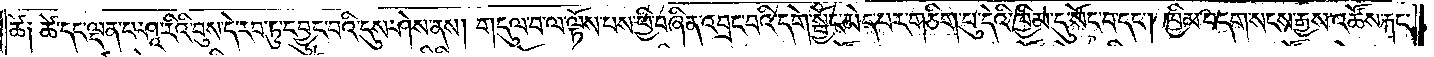ཚེ༑ ཚེ་དང་ལྡན་པ་ཤཱ་རིའི་བུས་དེ་རབ་ཏུ་དབྱུང་བའི་དུས་ཤེས་ནས། གདུལ་བ་ལ་ལྟོས་པས་ཕྱི་བཞིན་འབྲང་བའི་དགེ་སྦྱོང་མེད་པར་གཅིག་པུ་དེའི་ཁྱིམ་དུ་སོང་བ་དང༌། ཁྱིམ་བདག་སངས་རྒྱས་འཚོས་རྐང་
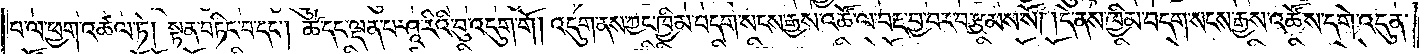པ་ལ་ཕྱག་འཚལ་ཏེ། སྟན་བཏིང་བ་དང༌། ཚེ་དང་ལྡན་པ་ཤཱ་རིའི་བུ་འདུག་གོ ། འདུག་ནས་ཀྱང་ཁྱིམ་བདག་སངས་རྒྱས་འཚོ་ལ་བརྡ་བྱ་བར་བརྩམས་སོ། །དེ་ནས་ཁྱིམ་བདག་སངས་རྒྱས་འཚོས་དགེ་འདུན་
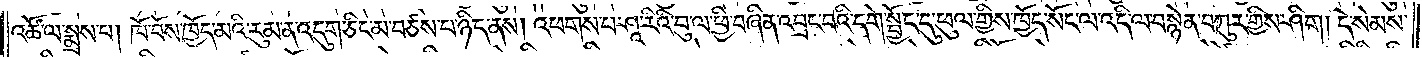འཚོ་ལ་སྨྲས་པ། ཁོ་བོས་ཁྱོད་མའི་རུམ་ན་འདུག་ཅིང་མ་བཙས་པ་ཉིད་ནས། འཕགས་པ་ཤཱ་རིའི་བུ་ལ་ཕྱི་བཞིན་འབྲང་བའི་དགེ་སྦྱོང་དུ་ཕུལ་གྱིས་ཁྱོད་སོང་ལ་འདི་ལ་བསྙེན་བཀུར་གྱིས་ཤིག ། དེ་སེམས་
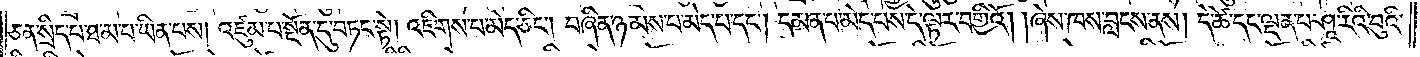ཅན་སྲིད་པ་ཐ་མ་པ་ཡིན་པས། འཛུམ་པ་སྔོན་དུ་བཏང་སྟེ། འཇིགས་པ་མེད་ཅིང༌། བཞིན་ཉམས་པ་མེད་པ་དང༌། དམན་པ་མེད་པས་དེ་ལྟར་བགྱིའོ། །ཞེས་ཁས་བླངས་ནས། དེ་ཚེ་དང་ལྡན་པ་ཤཱ་རིའི་བུའི་
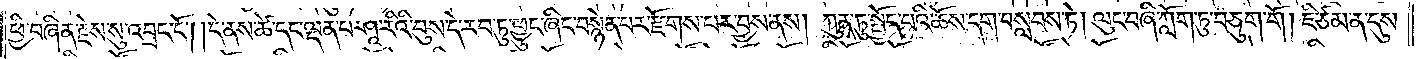ཕྱི་བཞིན་རྗེས་སུ་འབྲང་ངོ༌། །དེ་ནས་ཚེ་དང་ལྡན་པ་ཤཱ་རིའི་བུས་དེ་རབ་ཏུ་ཕྱུང་ཞིང་བསྙེན་པར་རྫོགས་པར་བྱས་ནས། ཀུན་ཏུ་སྤྱོད་པའི་ཆོས་དག་བསླབས་ཏེ། ལུང་བཞི་ཀློག་ཏུ་བཅུག་གོ ། ཇི་ཙམ་ན་དུས་
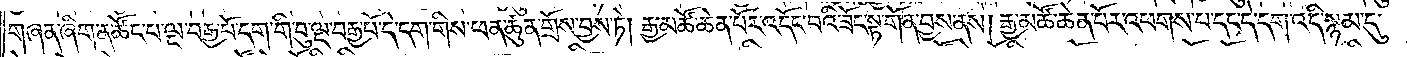གཞན་ཞིག་ན་ཚོང་པ་ལྔ་བརྒྱ་པོ་དག་གི་བུ་ལྔ་བརྒྱ་པོ་དེ་དག་གིས་ཕན་ཚུན་གྲོས་བྱས་ཏེ། རྒྱ་མཚོ་ཆེན་པོར་འདོང་བའི་ཟོང་སྟེ་གོན་བྱས་ནས། རྒྱ་མཚོ་ཆེན་པོར་འཕགས་པ་དང་དེ་དག་འདི་སྙམ་དུ་
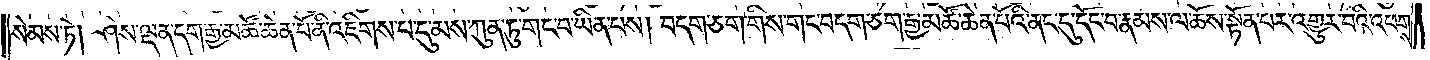སེམས་ཏེ། ཤེས་ལྡན་དག་རྒྱ་མཚོ་ཆེན་པོ་ནི་འཇིགས་བ་དུ་མས་ཀུན་ཏུ་གང་བ་ཡིན་པས། བདག་ཅག་གིས་གང་བདག་ཅག་རྒྱ་མཚོ་ཆེན་པོའི་ནང་དུ་དོང་བ་རྣམས་ལ་ཆོས་སྟོན་པར་འགྱུར་བའི་འཕགས་
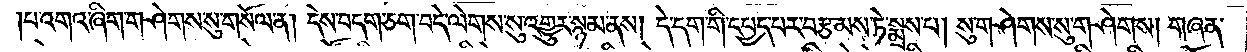པ་འགའ་ཞིག་གཤེགས་སུ་གསོལ་ན། དེས་བདག་ཅག་བདེ་ལེགས་སུ་འགྱུར་སྙམ་ནས། དེ་དག་གི་དཔྱད་པར་བརྩམས་ཏེ་སྨྲས་པ། སུ་གཤེགས་སུ་གཤེགས། གཞན་
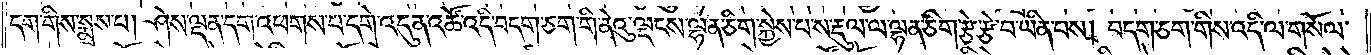དག་གིས་སྨྲས་པ། ཤེས་ལྡན་དག་འཕགས་པ་དགེ་འདུན་འཚོ་འདི་བདག་ཅག་གི་ནེའུ་ལྡངས་ལྷན་ཅིག་སྐྱེས་པ་ས་རྡུལ་ལ་ལྷན་ཅིག་རྩེ་རྩེ་བ་ཡིན་པས། བདག་ཅག་གིས་འདི་ལ་གསོལ་
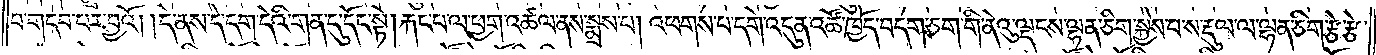བ་གདབ་པར་བྱའོ། །དེ་ནས་དེ་དག་དེའི་གན་དུ་དོང་སྟེ། རྐང་པ་ལ་ཕྱག་འཚལ་ནས་སྨྲས་པ། འཕགས་པ་དགེ་འདུན་འཚོ་ཁྱོད་བདག་ཅག་གི་ནེའུ་ལྡངས་ལྷན་ཅིག་སྐྱེས་པ་ས་རྡུལ་ལ་ལྷན་ཅིག་རྩེ་རྩེ་
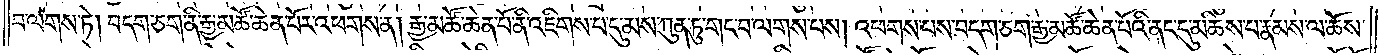བ་ལགས་ཏེ། བདག་ཅག་ནི་རྒྱ་མཚོ་ཆེན་པོར་འཕགས་ན། རྒྱ་མཚོ་ཆེན་པོ་ནི་འཇིགས་པ་དུ་མས་ཀུན་ཏུ་གང་བ་ལགས་པས། འཕགས་པས་བདག་ཅག་རྒྱ་མཚོ་ཆེན་པོའི་ནང་དུ་མཆིས་པ་རྣམས་ལ་ཆོས་
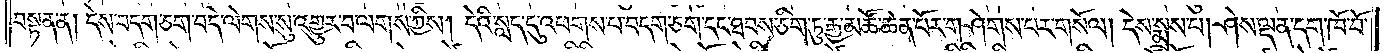བསྟན་ན། དེས་བདག་ཅག་བདེ་ལེགས་སུ་འགྱུར་བ་ལགས་ཀྱིས། དེའི་སླད་དུ་འཕགས་པ་བདག་ཅག་དང་ཐབས་ཅིག་ཏུ་རྒྱ་མཚོ་ཆེན་པོར་གཤེགས་པར་གསོལ། དེས་སྨྲས་པ། ཤེས་ལྡན་དག་ཁོ་བོ་
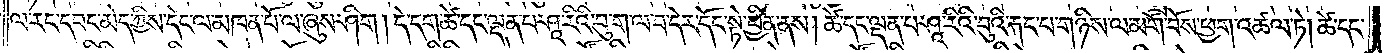ལ་རང་དབང་མེད་ཀྱིས་དེང་ལ་མཁན་པོ་ལ་ཞུས་ཤིག །དེ་དག་ཚེ་དང་ལྡན་པ་ཤཱ་རིའི་བུ་ག་ལ་བ་དེར་དོང་སྟེ་ཕྱིན་ནས། ཚེ་དང་ལྡན་པ་ཤཱ་རིའི་བུའི་རྐང་པ་གཉིས་ལ་མགོ་བོས་ཕྱག་འཚལ་ཏེ། ཚེ་དང་
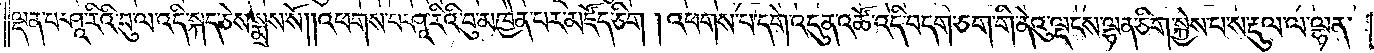ལྡན་པ་ཤཱ་རིའི་བུ་ལ་འདི་སྐད་ཅེས་སྨྲས་སོ༎འཕགས་པ་ཤཱ་རིའི་བུ་མཁྱེན་པར་མཛོད་ཅིག །འཕགས་པ་དགེ་འདུན་འཚོ་འདི་བདག་ཅག་གི་ནེའུ་ལྡངས་ལྷན་ཅིག་སྐྱེས་པ་ས་རྡུལ་ལ་ལྷན་
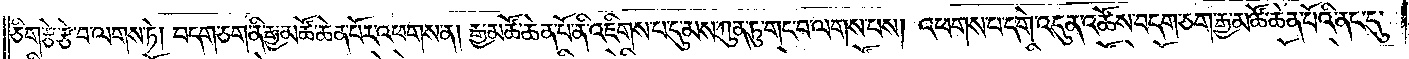ཅིག་རྩེ་རྩེ་བ་ལགས་ཏེ། བདག་ཅག་ནི་རྒྱ་མཚོ་ཆེན་པོར་འཕགས་ན། རྒྱ་མཚོ་ཆེན་པོ་ནི་འཇིགས་པ་དུ་མས་ཀུན་ཏུ་གང་བ་ལགས་པས། འཕགས་པ་དགེ་འདུན་འཚོས་བདག་ཅག་རྒྱ་མཚོ་ཆེན་པོའི་ནང་དུ་
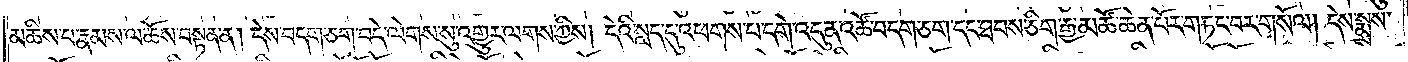མཆིས་པ་རྣམས་ལ་ཆོས་བསྟན་ན། དེས་བདག་ཅག་བདེ་ལེགས་སུ་འགྱུར་ལགས་ཀྱིས། དེའི་སླད་དུ་འཕགས་པ་དགེ་འདུན་འཚོ་བདག་ཅག་དང་ཐབས་ཅིག་རྒྱ་མཚོ་ཆེན་པོར་གཏང་བར་གསོལ། དེས་སྨྲས་
